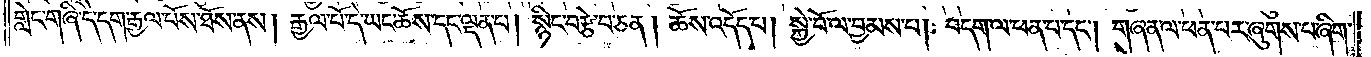གླེང་གཞི་དེ་དག་རྒྱལ་པོས་ཐོས་ནས། རྒྱལ་པོ་དེ་ཡང་ཆོས་དང་ལྡན་པ། སྙིང་བརྩེ་བ་ཅན། ཆོས་འདོད་པ། སྐྱེ་བོ་ལ་བྱམས་པ། བདག་ལ་ཕན་པ་དང༌། གཞན་ལ་ཕན་པར་ཞུགས་པ་ཞིག་
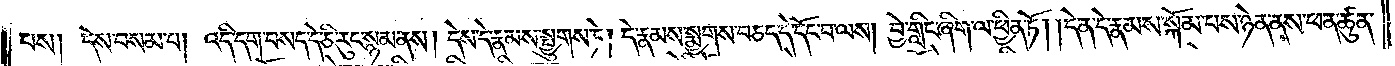པས། དེས་བསམ་པ། འདི་དག་བསད་དེ་ཅི་རུང་སྙམ་ནས། དེས་དེ་རྣམས་སྤྱུགས་ཏེ། དེ་རྣམས་སྨྱགས་བཅད་དེ་དོང་བ་ལས། བྱེ་གླིང་ཞིག་ལ་ཕྱིན་ཏོ། །དེ་ན་དེ་རྣམས་སྐོམ་པས་ཉེན་ནས་ཕན་ཚུན་
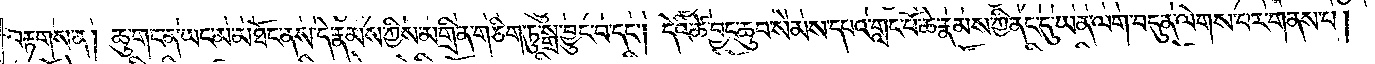བརྟགས་ན། ཆུ་གང་ན་ཡང་མ་མཐོང་ནས་དེ་རྣམས་ཀྱིས་མགྲིན་གཅིག་ཏུ་སྒྲ་བྱུང་བ་དང༌། དེའི་ཚེ་བྱང་ཆུབ་སེམས་དཔའ་གླང་པོ་ཆེ་རྣམས་ཀྱི་ནང་དུ་ཡན་ལག་བདུན་ལེགས་པར་གནས་པ།
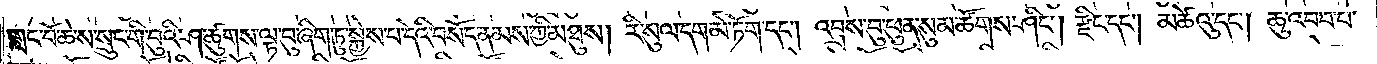གླང་པོ་ཆེ་ས་སྲུང་གི་བུའི་ཤ་ཚུགས་ལྟ་བུ་ཞིག་ཏུ་སྐྱེས་པ་དེའི་བསོད་ནམས་ཀྱི་མཐུས། རི་སུལ་དག་མེ་ཏོག་དང༌། འབྲས་བུ་ཕུན་སུམ་ཚོགས་ཤིང༌། རྫིང་དང༌། མཚེའུ་དང༌། ཆུ་འབབ་པ་
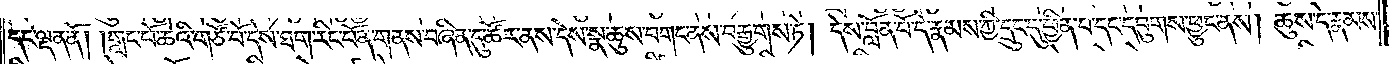དང་ལྡན་ནོ། གླང་པོ་ཆེའི་གཙོ་བོ་དེས་ཐག་རིང་པོ་ན་གནས་བཞིན་དུ་ཚོར་ནས་དེས་སྣ་ཆུས་བགང་ནས་བརྒྱུགས་ཏེ། དེས་བློན་པོ་དེ་རྣམས་ཀྱི་དྲུང་དུ་ཕྱིན་པ་དང་དབུགས་ཕྱུང་ནས། ཆུས་དེ་རྣམས་
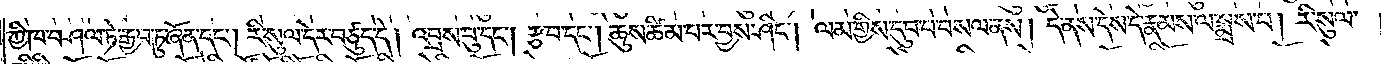ཀྱི་ཁ་བཤལ་ཏེ་རྒྱབ་ཏུ་ཞོན་དང༌། རི་སུལ་དེར་བཙུད་དེ། འབྲས་བུ་དང༌། རྩ་བ་དང༌། ཆུས་ཚིམ་པར་བྱས་ཤིང༌། ལམ་གྱིས་དུབ་པ་བསལ་ནས། དེ་ནས་དེས་དེ་རྣམས་ལ་སྨྲས་པ། རི་སུལ་
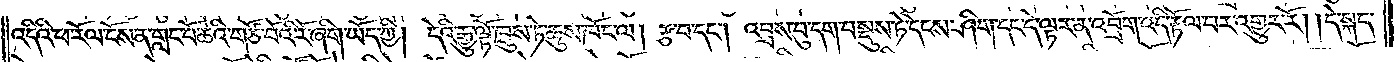འདིའི་ཕ་རོལ་ངོས་ན་གླང་པོ་ཆེའི་གཙོ་བོའི་རོ་ཞིག་ཡོད་ཀྱི། དེའི་རྒྱུ་ལྟོ་ཁྲུས་ཏེ་ཆུས་ཁོང་ལ། རྩ་བ་དང༌། འབྲས་བུ་དག་བསྡུས་ཏེ་དེངས་ཤིག་དང་དེ་ལྟར་ན་འབྲོག་འདི་རྟོལ་བར་འགྱུར་རོ། །དེ་སྐད་
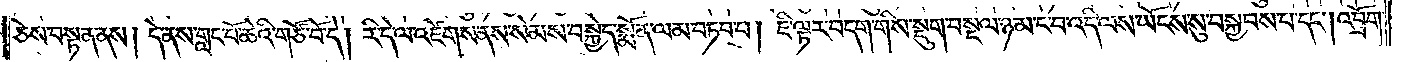ཅེས་བསྟན་ནས། དེ་ནས་གླང་པོ་ཆེའི་གཙོ་བོ་དེ། རི་དེ་ལ་འཛེགས་ནས་སེམས་བསྐྱེད་སྨོན་ལམ་བཏབ་པ། ཇི་ལྟར་བདག་གིས་སྡུག་བསྔལ་ཉམ་ང་བ་འདི་ལས་ཡོངས་སུ་བསྐྱབས་པ་དང༌། འབྲོག་
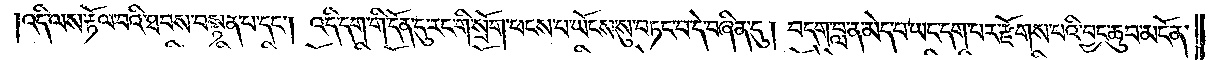འདི་ལས་རྟོལ་བའི་ཐབས་བསྟན་པ་དང༌། འདི་དག་གི་དོན་དུ་རང་གི་སྲོག་ཕངས་པ་ཡོངས་སུ་བཏང་བ་དེ་བཞིན་དུ། བདག་བླ་ན་མེད་པ་ཡང་དག་པར་རྫོགས་པའི་བྱང་ཆུབ་མངོན་
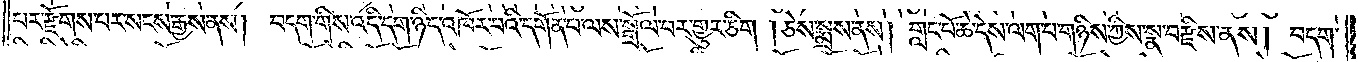པར་རྫོགས་པར་སངས་རྒྱས་ནས། བདག་གིས་འདི་དག་ཉིད་འཁོར་བའི་དགོན་པ་ལས་སྒྲོལ་བར་གྱུར་ཅིག །ཅེས་སྨྲས་ནས། གླང་པོ་ཆེ་དེས་ལག་པ་གཉིས་ཀྱིས་སྣ་བརྫིས་ནས། བདག་
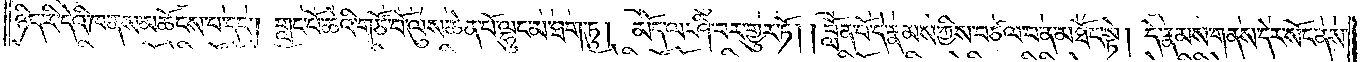ཉིད་རི་དེའི་ཁ་ནས་མཆོངས་པ་དང༌། གླང་པོ་ཆེའི་གཙོ་བོ་ལུས་ཆེན་པོ་ལྷུང་མ་ཐག་ཏུ། མོད་ལ་ཤི་བར་གྱུར་ཏོ། །བློན་པོ་དེ་རྣམས་ཀྱིས་བཙལ་བ་ན་མཐོང་སྟེ། དེ་རྣམས་གནས་དེར་སོང་ནས་
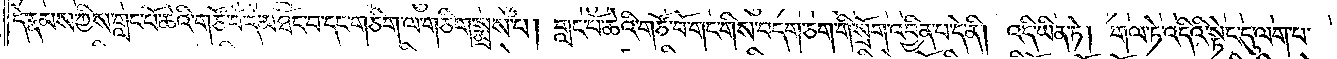དེ་རྣམས་ཀྱིས་གླང་པོ་ཆེའི་གཙོ་བོ་དེ་མཐོང་བ་དང་གཅིག་ལ་གཅིག་སྨྲས་པ། གླང་པོ་ཆེའི་གཙོ་བོ་གང་གིས་བདག་ཅག་གི་སྲོག་འབྱིན་པ་དེ་ནི། འདི་ཡིན་ཏེ། གལ་ཏེ་འདིའི་སྟེང་དུ་ལག་པ་
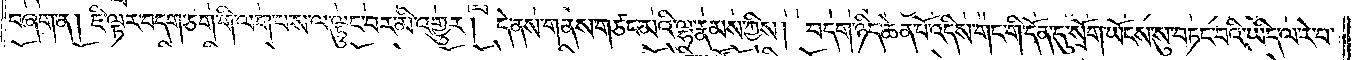བཞག་ན། ཇི་ལྟར་བདག་ཅག་གི་ལག་པ་ས་ལ་ལྟུང་བར་མི་འགྱུར། དེ་ནས་གནས་གཙང་མའི་ལྷ་རྣམས་ཀྱིས། བདག་ཉིད་ཆེན་པོ་འདིས་གང་གི་དོན་དུ་སྲོག་ཡོངས་སུ་བཏང་བའི་ཡིད་ལ་རེ་བ་
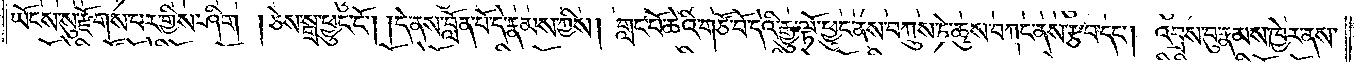ཡོངས་སུ་རྫོགས་པར་གྱིས་ཤིག །ཅེས་སྒྲ་ཕྱུང་ངོ༌། །དེ་ནས་བློན་པོ་དེ་རྣམས་ཀྱིས། གླང་པོ་ཆེའི་གཙོ་བོ་དེའི་རྒྱུ་ལྟོ་ཕྱུང་ནས་བཀྲུས་ཏེ་ཆུས་བཀང་ནས་རྩབ་དང༌། འབྲས་བུ་རྣམས་ཁྱེར་ནས་
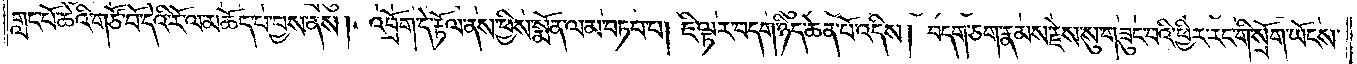གླང་པོ་ཆེའི་གཙོ་བོ་དེའི་རོ་ལ་མཆོད་པ་བྱས་ནས། འབྲོག་དེ་རྟོལ་ནས་ཕྱིས་སྨོན་ལམ་བཏབ་པ། ཇི་ལྟར་བདག་ཉིད་ཆེན་པོ་འདིས། བདག་ཅག་རྣམས་རྗེས་སུ་གཟུང་བའི་ཕྱིར་རང་གི་སྲོག་ཡོངས་
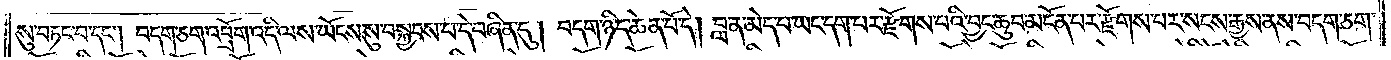སུ་བཏང་བ་དང༌། བདག་ཅག་འབྲོག་འདི་ལས་ཡོངས་སུ་བསྐྱབས་པ་དེ་བཞིན་དུ། བདག་ཉིད་ཆེན་པོ་དེ། བླ་ན་མེད་པ་ཡང་དག་པར་རྫོགས་པའི་བྱང་ཆུབ་མངོན་པར་རྫོགས་པར་སངས་རྒྱས་ནས་བདག་ཅག་
